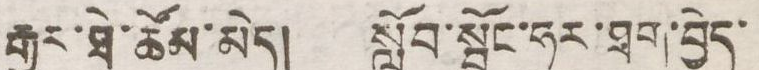རྒྱུར་ཐེ་ཚོམ་མེད། སློབ་སྦྱོང་ཧུར་ཐག་བྱེད་
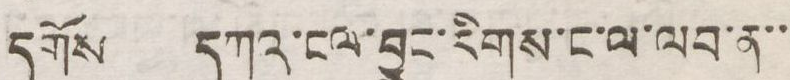དགོས དཀའ་ངལ་བྱུང་རིགས་ང་ལ་ལབ་ན་་
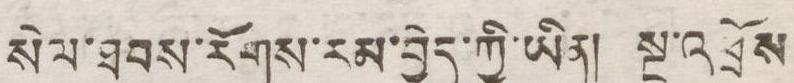སེལ་ཐབས་རོགས་རམ་བྱེད་ཀྱི་ཡིན། སྔ་འཕྲོས
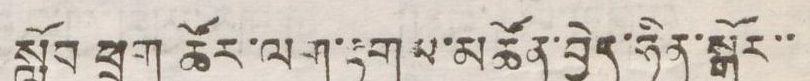སློབ ཕྲུག ཚོར་ལག་རྟགས་མཚོན་བྱེད་ཧིན་སྒོར་་
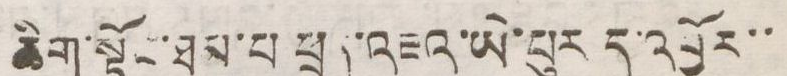ཆིག་སྟོང་ཐམ་པ ཕྲད་འཇའ་ཡེ་པུར དུ་འབྱོར་་
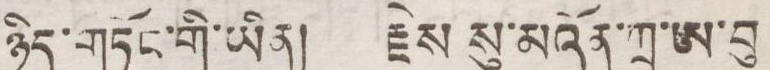ཉིད་གཏོང་གི་ཡིན། རྗེས སུ་མའོན་ཀྲ་ཨ་བུ
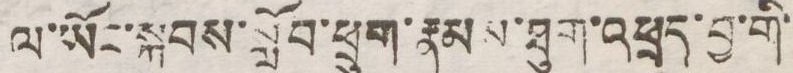ལ་ཡོང་སྐབས་སློབ་ཕྲྱག་རྣམས་ཐུག་འཕྲད་བྱ་གི་
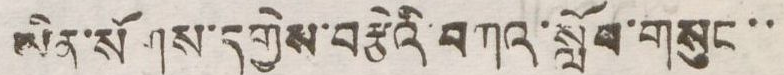ཡིན་སོགས་དགྱེས་བརྩེའི་བཀའ་སློབ་གསུང་་
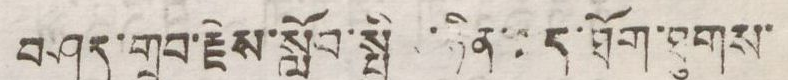བཤད་གྲུབ་རྗེས་སློབ་སྤྱིན་ཉིན་ ད་ཐོག་ཐུགས་
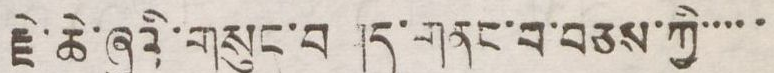རྗེ་ཆེ་ཞུའི་གསུང་བཤད་གནང་བ་བཅས་ཀྱི་་་་་
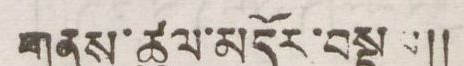གནས་ཚུལ་མདོར་བསྡུས།།
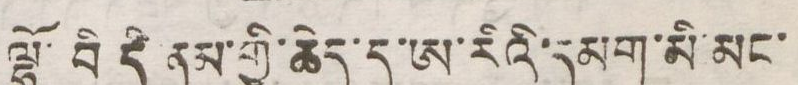ལྷོ་བི དི ནམ་གྱི་ཆེད་དུ་ཨ་རིའི་དམག་མི་མང་
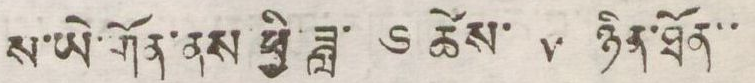ས་ཡེ་གོན་ནས་ཕྱི་ཟླ་ ༦ ཚེས་ ༥ ཉིན་ཐོན་་
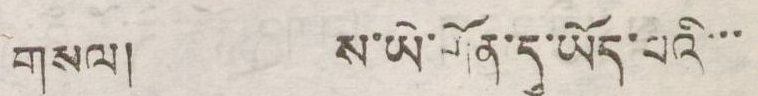གསལ། ས་ཡེ་གོན་དུ་ཡོད་པའི་་་
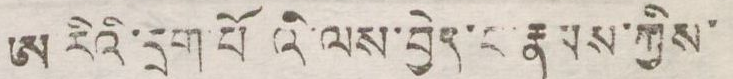ཨ རིའི་དྲག་པོ འི་ལས་བྱེད་པ་རྣམས་ཀྱིས་
